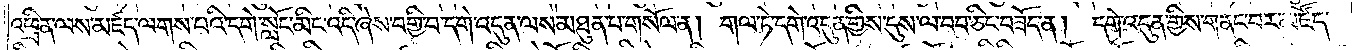འཕྲིན་ལས་མཛད་ལགས་པའི་དགེ་སློང་མིང་འདི་ཞེས་བགྱི་བ་དགེ་འདུན་ལས་མཐུན་པ་གསོལ་ན། གལ་ཏེ་དགེ་འདུན་གྱིས་དུས་ལ་བབ་ཅིང་བཟོད་ན། དགེ་འདུན་གྱིས་གནང་བར་མཛོད་
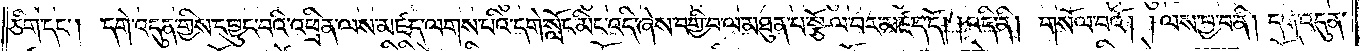ཅིག་དང༌། དགེ་འདུན་གྱིས་དབྱུང་བའི་འཕྲིན་ལས་མཛད་ལགས་པའི་དགེ་སློང་མིང་འདི་ཞེས་བགྱི་བ་ལ་མཐུན་པ་སྩོལ་བར་མཛད་དོ། །འདི་ནི། གསོལ་བའོ། །ལས་བྱ་བ་ནི། དགེ་འདུན་
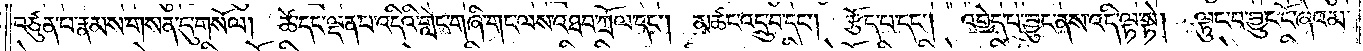བཙུན་པ་རྣམས་གསན་དུ་གསོལ། ཚེ་དང་ལྡན་པ་འདིའི་གླེང་གཞི་གང་ལས་འཐབ་ཀྲོལ་དང༌། མཚང་འདྲུ་བ་དང༌། རྩོད་པ་དང༌། འགྱེད་པ་བྱུང་ནས་འདི་ལྟ་སྟེ། ལྟུང་བ་བྱུང་ངོ་ཞེའམ་
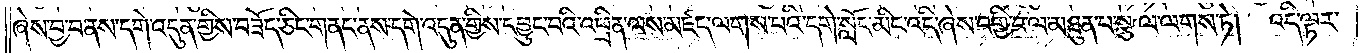ཞེས་བྱ་བ་ནས་དགེ་འདུན་གྱིས་བཟོད་ཅིང་གནང་ནས་དགེ་འདུན་གྱིས་དབྱུང་བའི་འཕྲིན་ལས་མཛད་ལགས་པའི་དགེ་སློང་མིང་འདི་ཞེས་བགྱི་བ་ལ་མཐུན་པ་སྩལ་ལགས་ཏེ། འདི་ལྟར་
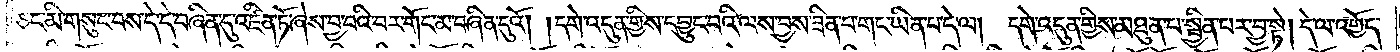ཅང་མི་གསུང་བས་དེ་དེ་བཞིན་དུ་འཛིན་ཏོ་ཞེས་བྱ་བའི་བར་གོང་མ་བཞིན་དུའོ། །དགེ་འདུན་གྱིས་དབྱུང་བའི་ལས་བྱས་ཟིན་པ་གང་ཡིན་པ་དེ་ལ། དགེ་འདུན་གྱིས་མཐུན་པ་སྦྱིན་པར་བྱ་སྟེ། དེ་ལ་འགྱོད་
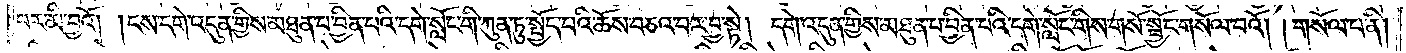བར་མི་བྱའོ། །ངས་དགེ་འདུན་གྱིས་མཐུན་པ་བྱིན་པའི་དགེ་སློང་གི་ཀུན་ཏུ་སྤྱོད་པའི་ཆོས་བཅའ་བར་བྱ་སྟེ། དགེ་འདུན་གྱིས་མཐུན་པ་བྱིན་པའི་དགེ་སློང་གིས་གསོ་སྦྱོང་གསོལ་བའོ། །གསོལ་བ་ནི།
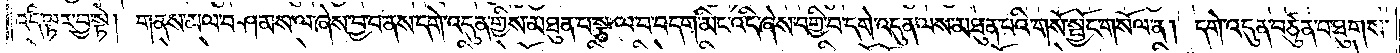འདི་ལྟར་བྱ་སྟེ། གནས་མལ་བཤམས་ལ་ཞེས་བྱ་བ་ནས་དགེ་འདུན་གྱིས་མཐུན་པ་སྩལ་བ་བདག་མིང་འདི་ཞེས་བགྱི་བ་དགེ་འདུན་ལས་མཐུན་པའི་གསོ་སྦྱོང་གསོལ་ན། དགེ་འདུན་བཙུན་པ་ཐུགས་
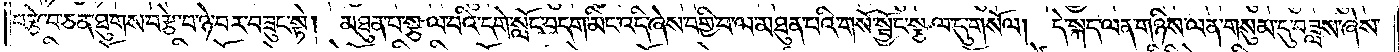བརྩེ་བ་ཅན་ཐུགས་བརྩེ་བ་ཉེ་བར་བཟུང་སྟེ། མཐུན་པ་སྩལ་བའི་དགེ་སློང་བདག་མིང་འདི་ཞེས་བགྱི་བ་ལ་མཐུན་པའི་གསོ་སྦྱོང་སྩལ་དུ་གསོལ། དེ་སྐད་ལན་གཉིས་ལན་གསུམ་དུ་བཟླས་ཞེས་
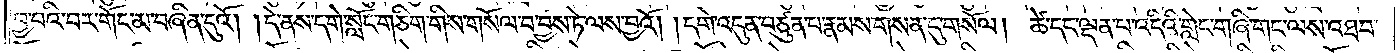བྱ་བའི་བར་གོང་མ་བཞིན་དུའོ། །དེ་ནས་དགེ་སློང་གཅིག་གིས་གསོལ་བ་བྱས་ཏེ་ལས་བྱའོ། །དགེ་འདུན་བཙུན་པ་རྣམས་གསན་དུ་གསོལ། ཚེ་དང་ལྡན་པ་འདིའི་གླེང་གཞི་གང་ལས་འཐབ་
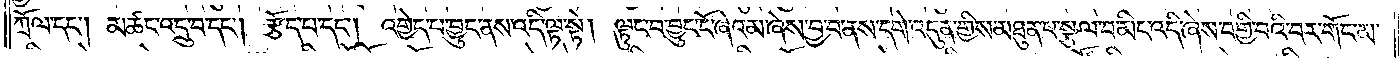ཀྲོལ་དང༌། མཚང་འདྲུ་བ་དང༌། རྩོད་པ་དང༌། འགྱེད་པ་བྱུང་ནས་འདི་ལྟ་སྟེ། ལྟུང་བ་བྱུང་ངོ་ཞེའམ་ཞེས་བྱ་བ་ནས་དགེ་འདུན་གྱིས་མཐུན་པ་སྩལ་པ་མིང་འདི་ཞེས་བགྱི་བའི་བར་གོང་མ་
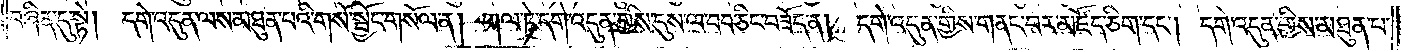བཞིན་དུ་སྟེ། དགེ་འདུན་ལས་མཐུན་པའི་གསོ་སྦྱོང་གསོལ་ན། གལ་ཏེ་དགེ་འདུན་གྱིས་དུས་ལ་བབ་ཅིང་བཟོད་ན། དགེ་འདུན་གྱིས་གནང་བར་མཛོད་ཅིག་དང༌། དགེ་འདུན་གྱིས་མཐུན་པ་
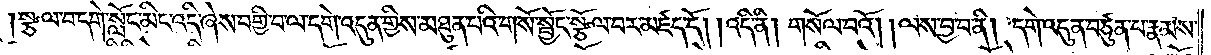།སྩལ་བ་དགེ་སློང་མིང་འདི་ཞེས་བགྱི་བ་ལ་དགེ་འདུན་གྱིས་མཐུན་པའི་གསོ་སྦྱོང་སྩོལ་བར་མཛད་དོ། །འདི་ནི། གསོལ་བའོ། །ལས་བྱ་བ་ནི། དགེ་འདུན་བཙུན་པ་རྣམས་
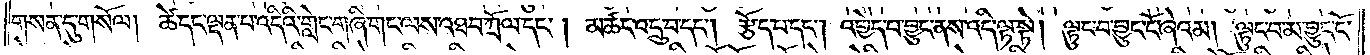གསན་དུ་གསོལ། ཚེ་དང་ལྡན་པ་འདིའི་གླེང་གཞི་གང་ལས་འཐབ་ཀྲོལ་དང༌། མཚང་འདྲུ་བ་དང༌། རྩོད་པ་དང༌། འགྱེད་པ་བྱུང་ནས་འདི་ལྟ་སྟེ། ལྟུང་བ་བྱུང་ངོ་ཞེའམ། ལྟུང་བ་མ་བྱུང་ངོ་
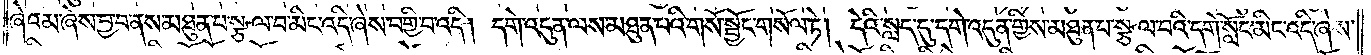ཞེའམ་ཞེས་བྱ་བ་ནས་མཐུན་པ་སྩལ་བ་མིང་འདི་ཞེས་བགྱི་བ་འདི། དགེ་འདུན་ལས་མཐུན་པའི་གསོ་སྦྱོང་གསོལ་ཏེ། དེའི་སླད་དུ་དགེ་འདུན་གྱིས་མཐུན་པ་སྩལ་བའི་དགེ་སློང་མིང་འདི་ཞེས་
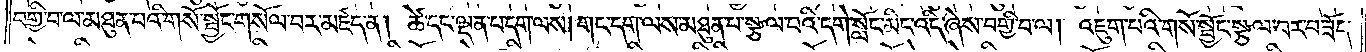བགྱི་བ་ལ་མཐུན་པའི་གསོ་སྦྱོང་གསོལ་བར་མཛད་ན། ཚེ་དང་ལྡན་པ་དག་ལས། གང་དག་ལས་མཐུན་པ་སྩལ་བའི་དགེ་སློང་མིང་འདི་ཞེས་བགྱི་བ་ལ། འཇུག་པའི་གསོ་སྦྱོང་སྩལ་བར་བཟོད་
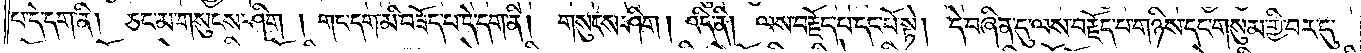པ་དེ་དག་ནི། ཅང་མ་གསུངས་ཤིག །གང་དག་མི་བཟོད་པ་དེ་དག་ནི། གསུངས་ཤིག །འདི་ནི། ལས་བརྗོད་པ་དང་པོ་སྟེ། དེ་བཞིན་དུ་ལས་བརྗོད་པ་གཉིས་དང་གསུམ་གྱི་བར་དུ་
